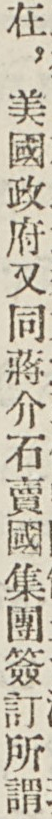在，美國政府又同蔣介石賣國集團簽訂所謂
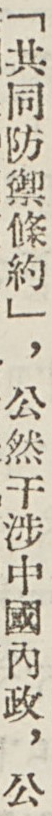「共同防禦條約」，公然干涉中國內政，公
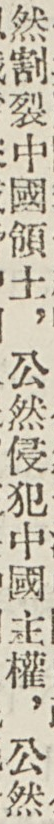然割裂中國領土，公然侵犯中國主權，公然
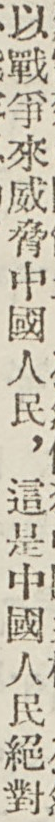以戰爭來威脅中國人民，這是中國人民絕對
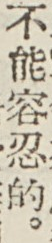不能容忍的。
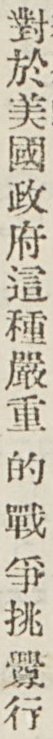對於美國政府這種嚴重 的 戰爭挑釁行
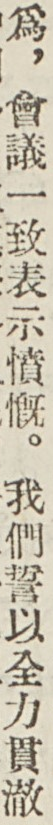爲，會議一致表示憤慨。我們誓以全力貫徹
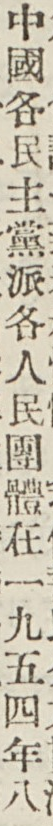中國各民主黨派各人民團體在一九五四年八
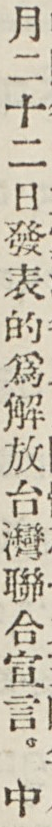月二十二日發表的爲解放台灣聯合宣言。中
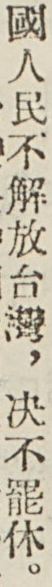國人民不解放台灣，決不罷休。
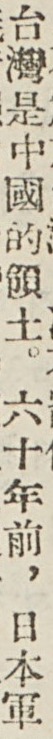台灣是中國的領土。六十年前，日本軍
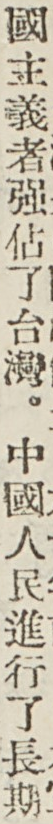國主義者強佔了台灣。中國人民進行了長期
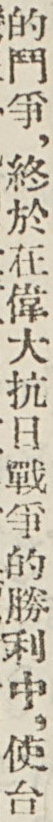的鬥爭，終於在偉大抗日戰爭的勝利中，使台
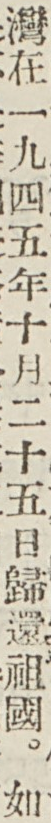灣在一九四五年十月二十五日歸還祖國。如
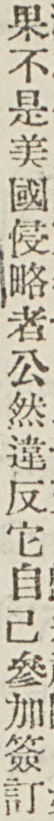果不是美國侵略者公然違反它自己參加簽訂
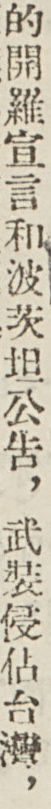的開羅宣言和波茨坦公告，武裝侵佔台灣，
